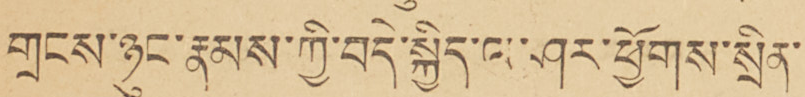གྲངས་ཉུང་རྣམས་ཀྱི་བདེ་སྐྱིད་ལ་ཤར་ཕྱོགས་སྲིན་
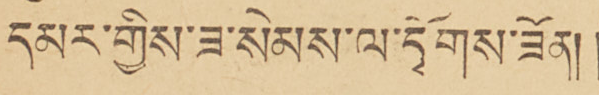དམར་གྱིས་ཟ་སེམས་ལ་དྭོགས་ཟོན།།
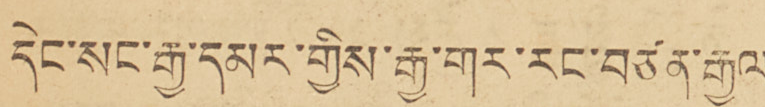དེང་སང་རྒྱ་དམར་གྱིས་རྒྱ་གར་རང་བཙན་རྒྱལ་
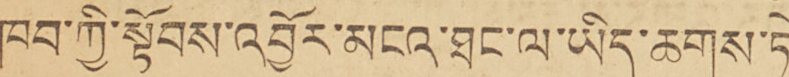ཁབ་ཀྱི་སྟོབས་འབྱོར་མངའ་ཐང་ལ་ཡིད་ཆགས་ཏེ་
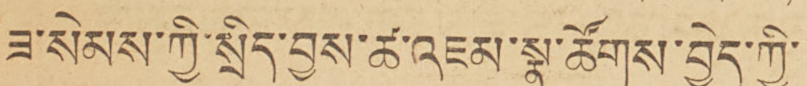ཟ་སེམས་ཀྱི་སྲིད་བྱུས་ཚ་འཇམ་སྣ་ཚོགས་བྱེད་ཀྱི་
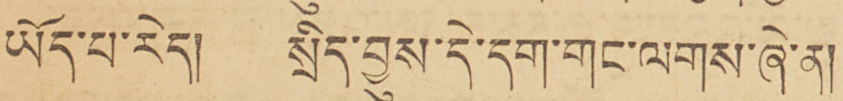ཡོད་པ་རེད། སྲིད་བྱུས་དེ་དག་གང་ལགས་ཞེ་ན།
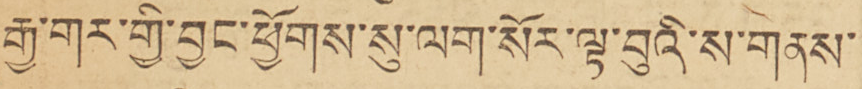རྒྱ་གར་གྱི་བྱང་ཕྱོགས་སུ་ལག་སོར་ལྟ་བུའི་ས་གནས་
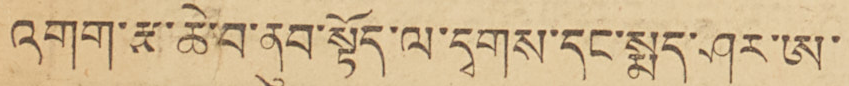འགག་རྩ་ཆེ་བ་ནུབ་སྟོད་ལ་དྭགས་དང་སྨད་ཤར་ཨ་
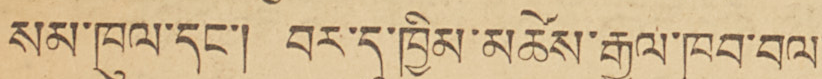སམ་ཁུལ་དང་། བར་དུ་ཁྱིམ་མཚེས་རྒྱལ་ཁབ་བལ་
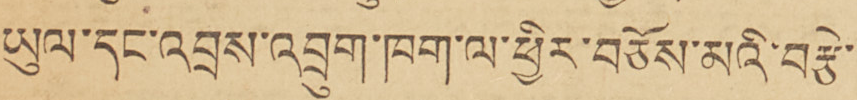ཡུལ་དང་འབྲས་འབྲུག་ཁག་ལ་ཕྱིར་བཅོས་མའི་བརྩེ་
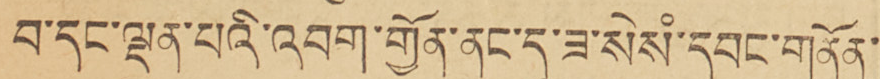བ་དང་ལྡན་པའི་འབག་གྱོན་ནང་དུ་ཟ་སེསཾ་དབང་གནོན་
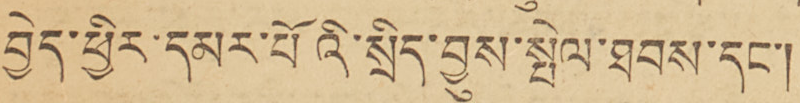བྱེད་ཕྱིར་དམར་པོའི་སྲིད་བྱུས་སྤེལ་ཐབས་དང་།
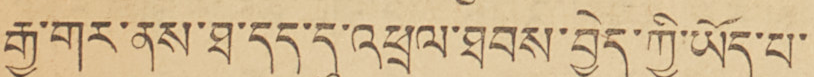རྒྱ་གར་ནས་ཐ་དད་དུ་འཕྲལ་ཐབས་བྱེད་ཀྱི་ཡོད་པ་
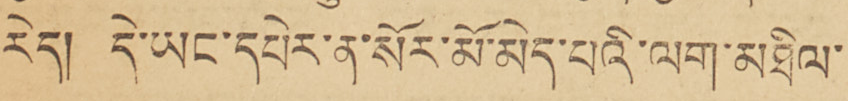རེད། དེ་ཡང་དཔེར་ན་སོར་མོ་མེད་པའི་ལག་མཐིལ་
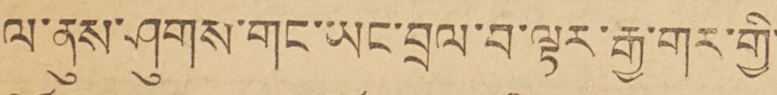ལ་ནུས་ཤུགས་གང་ཡང་བྲལ་བ་ལྟར་རྒྱ་གར་གྱི་
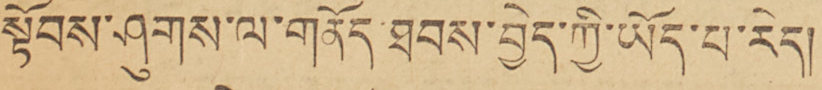སྟོབས་ཤུགས་ལ་གནོད་ཐབས་བྱེད་ཀྱི་ཡོད་པ་རེད།
